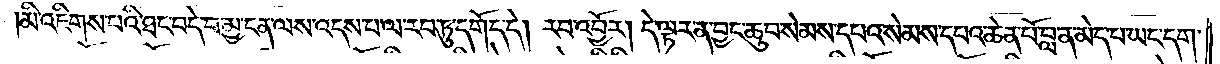མི་འཇིགས་པའི་ཐང་བདེ་བ་མྱ་ངན་ལས་འདས་པ་ལ་རབ་ཏུ་འགོད་དེ། རབ་འབྱོར། དེ་ལྟར་ན་བྱང་ཆུབ་སེམས་དཔའ་སེམས་དཔའ་ཆེན་པོ་བླ་ན་མེད་པ་ཡང་དག་
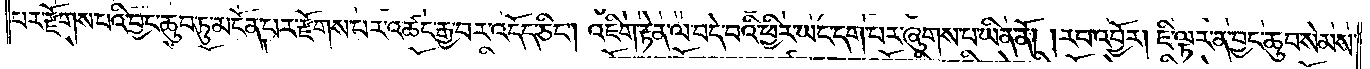པར་རྫོགས་པའི་བྱང་ཆུབ་ཏུ་མངོན་པར་རྫོགས་པར་འཚང་རྒྱ་བར་འདོད་ཅིང༌། འཇིག་རྟེན་ལ་བདེ་བའི་ཕྱིར་ཡང་དག་པར་ཞུགས་པ་ཡིན་ནོ། །རབ་འབྱོར། ཇི་ལྟར་ན་བྱང་ཆུབ་སེམས་
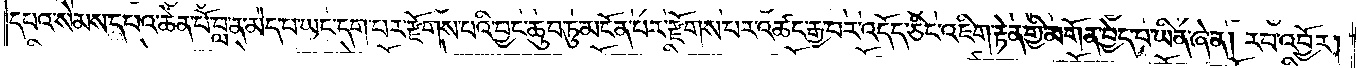དཔའ་སེམས་དཔའ་ཆེན་པོ་བླ་ན་མེད་པ་ཡང་དག་པར་རྫོགས་པའི་བྱང་ཆུབ་ཏུ་མངོན་པར་རྫོགས་པར་འཚང་རྒྱ་བར་འདོད་ཅིང་འཇིག་རྟེན་གྱི་མགོན་བྱེད་པ་ཡིན་ཞེ་ན། རབ་འབྱོར།
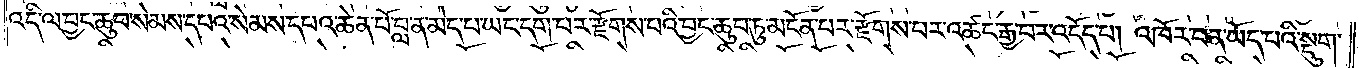འདི་ལ་བྱང་ཆུབ་སེམས་དཔའ་སེམས་དཔའ་ཆེན་པོ་བླ་ན་མེད་པ་ཡང་དག་པར་རྫོགས་པའི་བྱང་ཆུབ་ཏུ་མངོན་པར་རྫོགས་པར་འཚང་རྒྱ་བར་འདོད་པ། འཁོར་བ་ན་ཡོད་པའི་སྡུག་
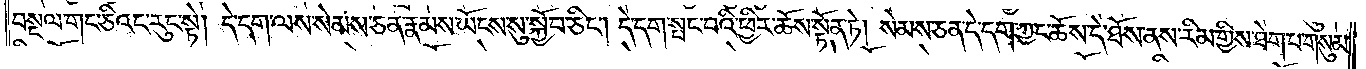བསྔལ་གང་ཅིའང་རུང་སྟེ། དེ་དག་ལས་སེམས་ཅན་རྣམས་ཡོངས་སུ་སྐྱོབ་ཅིང༌། དེ་དག་སྤང་བའི་ཕྱིར་ཆོས་སྟོན་ཏེ། སེམས་ཅན་དེ་དག་ཀྱང་ཆོས་དེ་ཐོས་ནས་རིམ་གྱིས་ཐེག་པ་གསུམ་
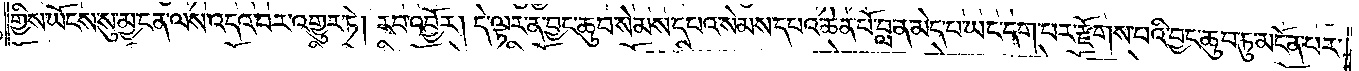གྱིས་ཡོངས་སུ་མྱ་ངན་ལས་འདའ་བར་འགྱུར་ཏེ། རབ་འབྱོར། དེ་ལྟར་ན་བྱང་ཆུབ་སེམས་དཔའ་སེམས་དཔའ་ཆེན་པོ་བླ་ན་མེད་པ་ཡང་དག་པར་རྫོགས་པའི་བྱང་ཆུབ་ཏུ་མངོན་པར་
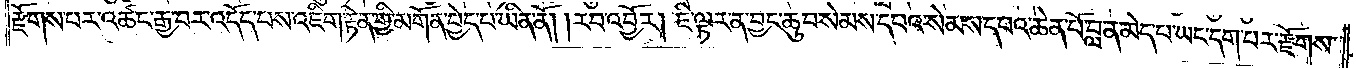རྫོགས་པར་འཚང་རྒྱ་བར་འདོད་པས་འཇིག་རྟེན་གྱི་མགོན་བྱེད་པ་ཡིན་ནོ། །རབ་འབྱོར། ཇི་ལྟར་ན་བྱང་ཆུབ་སེམས་དཔའ་སེམས་དཔའ་ཆེན་པོ་བླ་ན་མེད་པ་ཡང་དག་པར་རྫོགས་
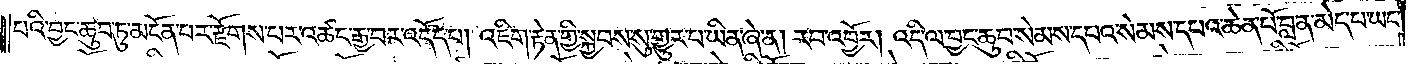པའི་བྱང་ཆུབ་ཏུ་མངོན་པར་རྫོགས་པར་འཚང་རྒྱ་བར་འདོད་པ། འཇིག་རྟེན་གྱི་སྐྱབས་སུ་གྱུར་པ་ཡིན་ཞེ་ན། རབ་འབྱོར། འདི་ལ་བྱང་ཆུབ་སེམས་དཔའ་སེམས་དཔའ་ཆེན་པོ་བླ་ན་མེད་པ་ཡང་
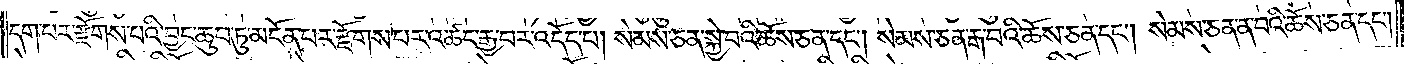དག་པར་རྫོགས་པའི་བྱང་ཆུབ་ཏུ་མངོན་པར་རྫོགས་པར་འཚང་རྒྱ་བར་འདོད་པ། སེམས་ཅན་སྐྱེ་བའི་ཆོས་ཅན་དང༌། སེམས་ཅན་རྒ་བའི་ཆོས་ཅན་དང༌། སེམས་ཅན་ན་བའི་ཆོས་ཅན་དང༌།
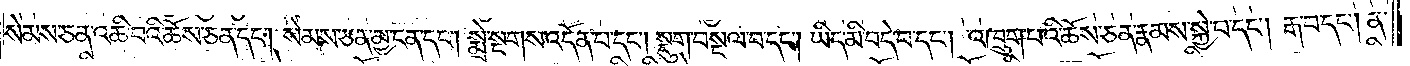སེམས་ཅན་འཆི་བའི་ཆོས་ཅན་དང༌། སེམས་ཅན་མྱ་ངན་དང༌། སྨྲེ་སྔགས་འདོན་པ་དང༌། སྡུག་བསྔལ་བ་དང༌། ཡིད་མི་བདེ་བ་དང༌། འཁྲུག་པའི་ཆོས་ཅན་རྣམས་སྐྱེ་བ་དང༌། རྒ་བ་དང༌། ན་
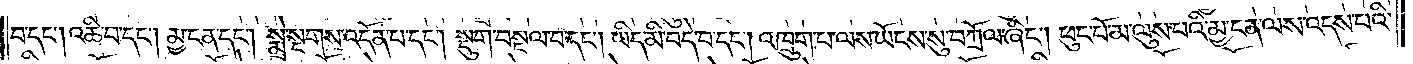བ་དང༌། འཆི་བ་དང༌། མྱ་ངན་དང༌། སྨྲེ་སྔགས་འདོན་པ་དང༌། སྡུག་བསྔལ་བ་དང༌། ཡིད་མི་བདེ་བ་དང༌། འཁྲུག་པ་ལས་ཡོངས་སུ་བཀྲོལ་ཞིང༌། ཕུང་པོ་མ་ལུས་པའི་མྱ་ངན་ལས་འདས་པའི་
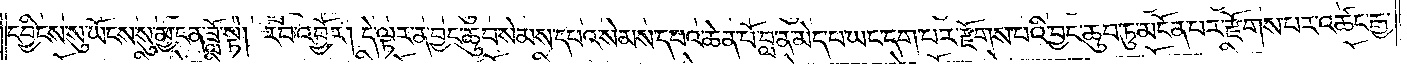དབྱིངས་སུ་ཡོངས་སུ་མྱ་ངན་ཟློ་སྟེ། རབ་འབྱོར། དེ་ལྟར་ན་བྱང་ཆུབ་སེམས་དཔའ་སེམས་དཔའ་ཆེན་པོ་བླ་ན་མེད་པ་ཡང་དག་པར་རྫོགས་པའི་བྱང་ཆུབ་ཏུ་མངོན་པར་རྫོགས་པར་འཚང་རྒྱ་
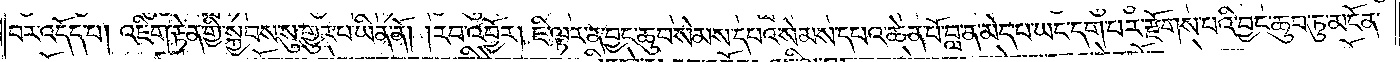བར་འདོད་པ། འཇིག་རྟེན་གྱི་སྐྱབས་སུ་གྱུར་པ་ཡིན་ནོ། །རབ་འབྱོར། ཇི་ལྟར་ན་བྱང་ཆུབ་སེམས་དཔའ་སེམས་དཔའ་ཆེན་པོ་བླ་ན་མེད་པ་ཡང་དག་པར་རྫོགས་པའི་བྱང་ཆུབ་ཏུ་མངོན་
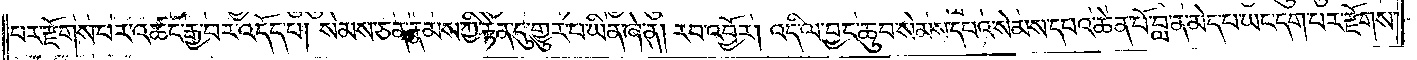པར་རྫོགས་པར་འཚང་རྒྱ་བར་འདོད་པ། སེམས་ཅན་རྣམས་ཀྱི་རྟེན་དུ་གྱུར་པ་ཡིན་ཞེ་ན། རབ་འབྱོར། འདི་ལ་བྱང་ཆུབ་སེམས་དཔའ་སེམས་དཔའ་ཆེན་པོ་བླ་ན་མེད་པ་ཡང་དག་པར་རྫོགས་
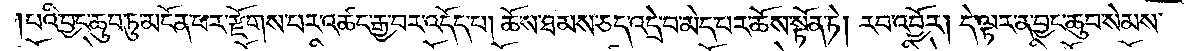པའི་བྱང་ཆུབ་ཏུ་མངོན་པར་རྫོགས་པར་འཚང་རྒྱ་བར་འདོད་པ། ཆོས་ཐམས་ཅད་འདྲེ་བ་མེད་པར་ཆོས་སྟོན་ཏེ། རབ་འབྱོར། དེ་ལྟར་ན་བྱང་ཆུབ་སེམས་
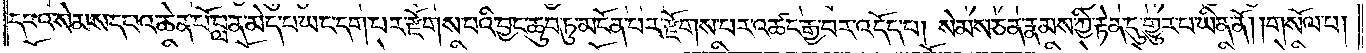དཔའ་སེམས་དཔའ་ཆེན་པོ་བླ་ན་མེད་པ་ཡང་དག་པར་རྫོགས་པའི་བྱང་ཆུབ་ཏུ་མངོན་པར་རྫོགས་པར་འཚང་རྒྱ་བར་འདོད་པ། སེམས་ཅན་རྣམས་ཀྱི་རྟེན་དུ་གྱུར་པ་ཡིན་ནོ། །གསོལ་པ།
